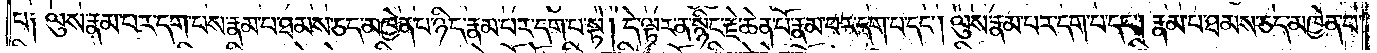པ༑ ལུས་རྣམ་པར་དག་པས་རྣམ་པ་ཐམས་ཅད་མཁྱེན་པ་ཉིད་རྣམ་པར་དག་པ་སྟེ། དེ་ལྟར་ན་སྙིང་རྗེ་ཆེན་པོ་རྣམ་པར་དག་པ་དང༌། ལུས་རྣམ་པར་དག་པ་དང༌། རྣམ་པ་ཐམས་ཅད་མཁྱེན་པ་
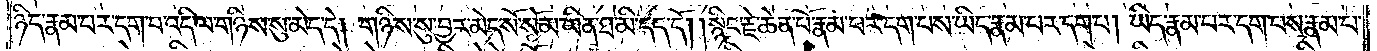ཉིད་རྣམ་པར་དག་པ་འདི་ལ་གཉིས་སུ་མེད་དེ། གཉིས་སུ་བྱར་མེད་སོ་སོ་མ་ཡིན་ཐ་མི་དད་དོ། །སྙིང་རྗེ་ཆེན་པོ་རྣམ་པར་དག་པས་ཡིད་རྣམ་པར་དག་པ། ཡིད་རྣམ་པར་དག་པས་རྣམ་པ་
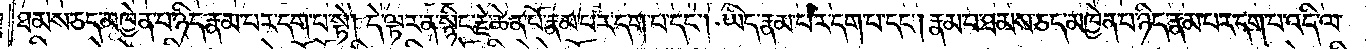ཐམས་ཅད་མཁྱེན་པ་ཉིད་རྣམ་པར་དག་པ་སྟེ། དེ་ལྟར་ན་སྙིང་རྗེ་ཆེན་པོ་རྣམ་པར་དག་པ་དང༌། ཡིད་རྣམ་པར་དག་པ་དང༌། རྣམ་པ་ཐམས་ཅད་མཁྱེན་པ་ཉིད་རྣམ་པར་དག་པ་འདི་ལ་
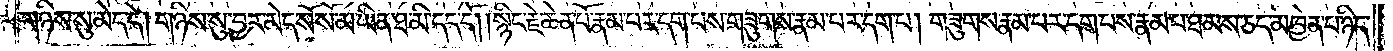གཉིས་སུ་མེད་དེ། གཉིས་སུ་བྱར་མེད་སོ་སོ་མ་ཡིན་ཐ་མི་དད་དོ། །སྙིང་རྗེ་ཆེན་པོ་རྣམ་པར་དག་པས་གཟུགས་རྣམ་པར་དག་པ། གཟུགས་རྣམ་པར་དག་པས་རྣམ་པ་ཐམས་ཅད་མཁྱེན་པ་ཉིད་
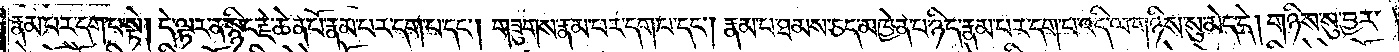རྣམ་པར་དག་པ་སྟེ། དེ་ལྟར་ན་སྙིང་རྗེ་ཆེན་པོ་རྣམ་པར་དག་པ་དང༌། གཟུགས་རྣམ་པར་དག་པ་དང༌། རྣམ་པ་ཐམས་ཅད་མཁྱེན་པ་ཉིད་རྣམ་པར་དག་པ་འདི་ལ་གཉིས་སུ་མེད་དེ། གཉིས་སུ་བྱར་
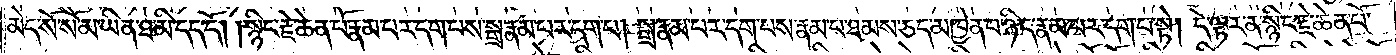མེད་སོ་སོ་མ་ཡིན་ཐ་མི་དད་དོ། །སྙིང་རྗེ་ཆེན་པོ་རྣམ་པར་དག་པས་སྒྲ་རྣམ་པར་དག་པ། སྒྲ་རྣམ་པར་དག་པས་རྣམ་པ་ཐམས་ཅད་མཁྱེན་པ་ཉིད་རྣམ་པར་དག་པ་སྟེ། དེ་ལྟར་ན་སྙིང་རྗེ་ཆེན་པོ་
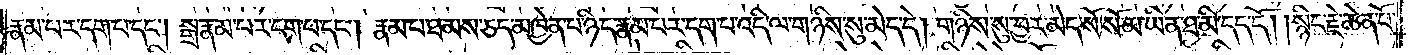རྣམ་པར་དག་པ་དང༌། སྒྲ་རྣམ་པར་དག་པ་དང༌། རྣམ་པ་ཐམས་ཅད་མཁྱེན་པ་ཉིད་རྣམ་པར་དག་པ་འདི་ལ་གཉིས་སུ་མེད་དེ། གཉིས་སུ་བྱར་མེད་སོ་སོ་མ་ཡིན་ཐ་མི་དད་དོ། །སྙིང་རྗེ་ཆེན་པོ་
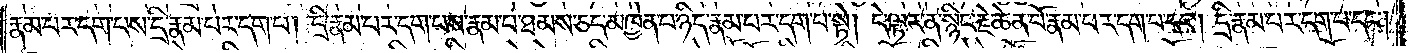རྣམ་པར་དག་པས་དྲི་རྣམ་པར་དག་པ། དྲི་རྣམ་པར་དག་པས་རྣམ་པ་ཐམས་ཅད་མཁྱེན་པ་ཉིད་རྣམ་པར་དག་པ་སྟེ། དེ་ལྟར་ན་སྙིང་རྗེ་ཆེན་པོ་རྣམ་པར་དག་པ་དང༌། དྲི་རྣམ་པར་དག་པ་དང༌།
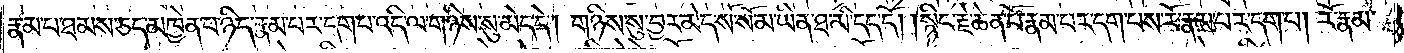རྣམ་པ་ཐམས་ཅད་མཁྱེན་པ་ཉིད་རྣམ་པར་དག་པ་འདི་ལ་གཉིས་སུ་མེད་དེ། གཉིས་སུ་བྱར་མེད་སོ་སོ་མ་ཡིན་ཐ་མི་དད་དོ། །སྙིང་རྗེ་ཆེན་པོ་རྣམ་པར་དག་པས་རོ་རྣམ་པར་དག་པ། རོ་རྣམ་
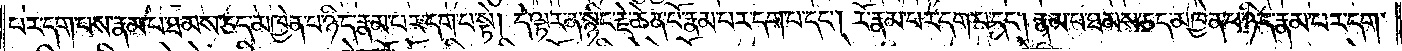པར་དག་པས་རྣམ་པ་ཐམས་ཅད་མཁྱེན་པ་ཉིད་རྣམ་པར་དག་པ་སྟེ། དེ་ལྟར་ན་སྙིང་རྗེ་ཆེན་པོ་རྣམ་པར་དག་པ་དང༌། རོ་རྣམ་པར་དག་པ་དང༌། རྣམ་པ་ཐམས་ཅད་མཁྱེན་པ་ཉིད་རྣམ་པར་དག་
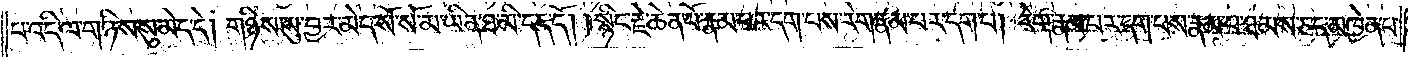པ་འདི་ལ་གཉིས་སུ་མེད་དེ། གཉིས་སུ་བྱར་མེད་སོ་སོ་མ་ཡིན་ཐ་མི་དད་དོ། །སྙིང་རྗེ་ཆེན་པོ་རྣམ་པར་དག་པས་རེག་རྣམ་པར་དག་པ། རེག་རྣམ་པར་དག་པས་རྣམ་པ་ཐམས་ཅད་མཁྱེན་པ་
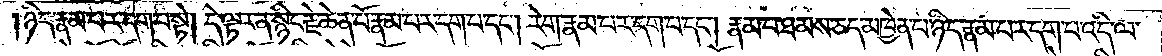ཉིད་རྣམ་པར་དག་པ་སྟེ། དེ་ལྟར་ན་སྙིང་རྗེ་ཆེན་པོ་རྣམ་པར་དག་པ་དང༌། རེག་རྣམ་པར་དག་པ་དང༌། རྣམ་པ་ཐམས་ཅད་མཁྱེན་པ་ཉིད་རྣམ་པར་དག་པ་འདི་ལ་
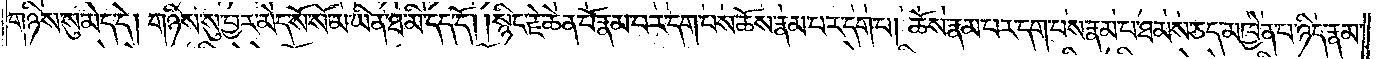གཉིས་སུ་མེད་དེ། གཉིས་སུ་བྱར་མེད་སོ་སོ་མ་ཡིན་ཐ་མི་དད་དོ། །སྙིང་རྗེ་ཆེན་པོ་རྣམ་པར་དག་པས་ཆོས་རྣམ་པར་དག་པ། ཆོས་རྣམ་པར་དག་པས་རྣམ་པ་ཐམས་ཅད་མཁྱེན་པ་ཉིད་རྣམ་
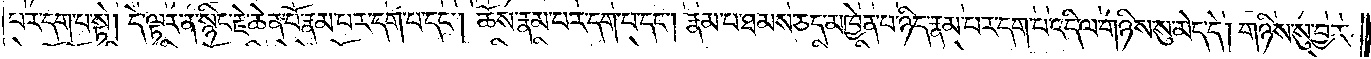པར་དག་པ་སྟེ། དེ་ལྟར་ན་སྙིང་རྗེ་ཆེན་པོ་རྣམ་པར་དག་པ་དང༌། ཆོས་རྣམ་པར་དག་པ་དང༌། རྣམ་པ་ཐམས་ཅད་མཁྱེན་པ་ཉིད་རྣམ་པར་དག་པ་འདི་ལ་གཉིས་སུ་མེད་དེ། གཉིས་སུ་བྱར་
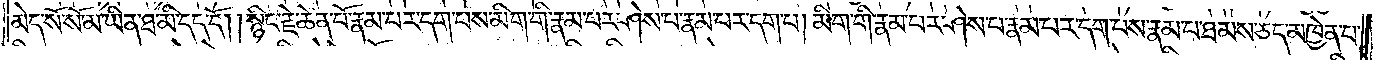མེད་སོ་སོ་མ་ཡིན་ཐ་མི་དད་དོ། །སྙིང་རྗེ་ཆེན་པོ་རྣམ་པར་དག་པས་མིག་གི་རྣམ་པར་ཤེས་པ་རྣམ་པར་དག་པ། མིག་གི་རྣམ་པར་ཤེས་པ་རྣམ་པར་དག་པས་རྣམ་པ་ཐམས་ཅད་མཁྱེན་པ་
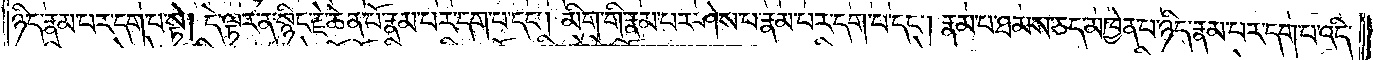ཉིད་རྣམ་པར་དག་པ་སྟེ། དེ་ལྟར་ན་སྙིང་རྗེ་ཆེན་པོ་རྣམ་པར་དག་པ་དང༌། མིག་གི་རྣམ་པར་ཤེས་པ་རྣམ་པར་དག་པ་དང༌། རྣམ་པ་ཐམས་ཅད་མཁྱེན་པ་ཉིད་རྣམ་པར་དག་པ་འདི་
